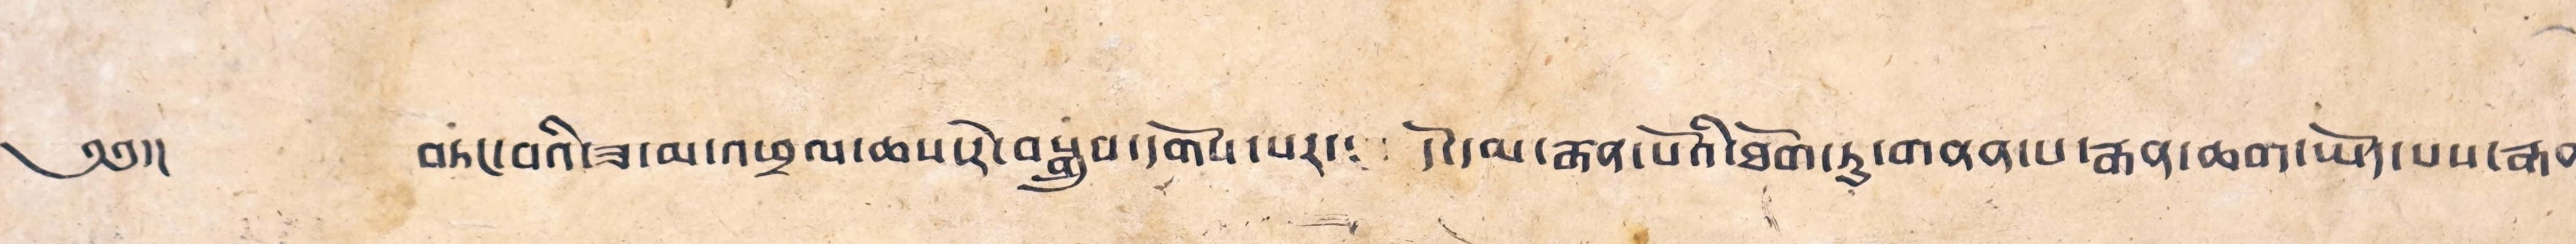༄༅།། བཏང་བའི་ཟ་མ་འཕྲལ་ཆས་རེ་བསྒུབ་དགོས་པར་དང་༴ དོ་དམ་རྒན་པོའི་ཐོག་ཏུ་གཤན་པ་རྒན་ཆག་ཡོད་པས་རྒན་
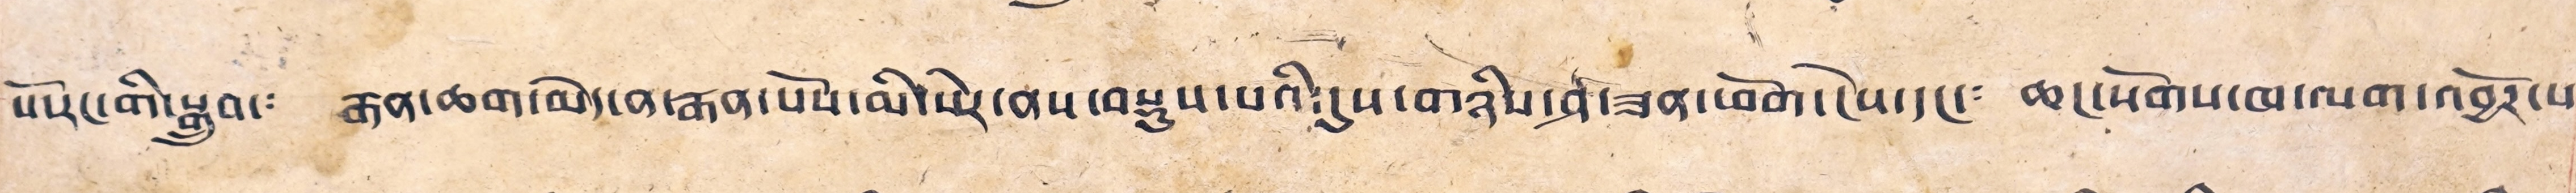པོ་རང་གི་སྒྲུབ་༴ རྒན་ཆག་མེད་ན་རྒན་པོས་མི་སེར་ནས་བསྡུས་པའི་དུས་གཉིས་ཤ་ཟན་ཕོག་ངེས་དང་༴ ཆང་སོགས་ཁ་ལག་འབྱོར་པ་
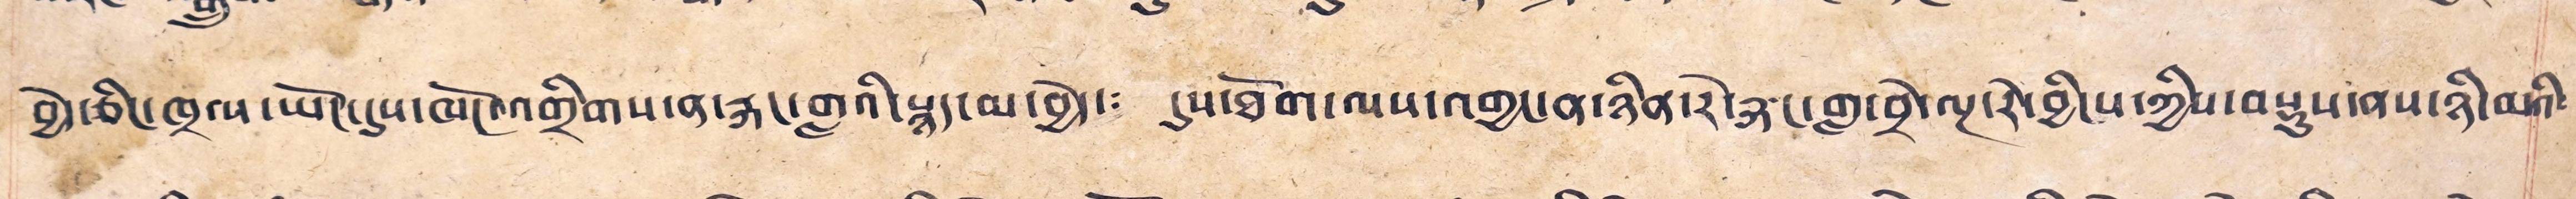བྱེད་ཅིང་ཁྲལ་ཡོང་དུས་ཁོང་འགྲིགས་ན་རྐང་གླའི་སྙད་མ་བྱེད་༴ དུས་ཐོག་ལས་འགྱང་ན་ཉིན་རེ་རྐང་གླ་བྲེ་ལྔ་རེ་བྱིངས་ཀྱིས་བསྡུས་བས་ཉི་མའི༴
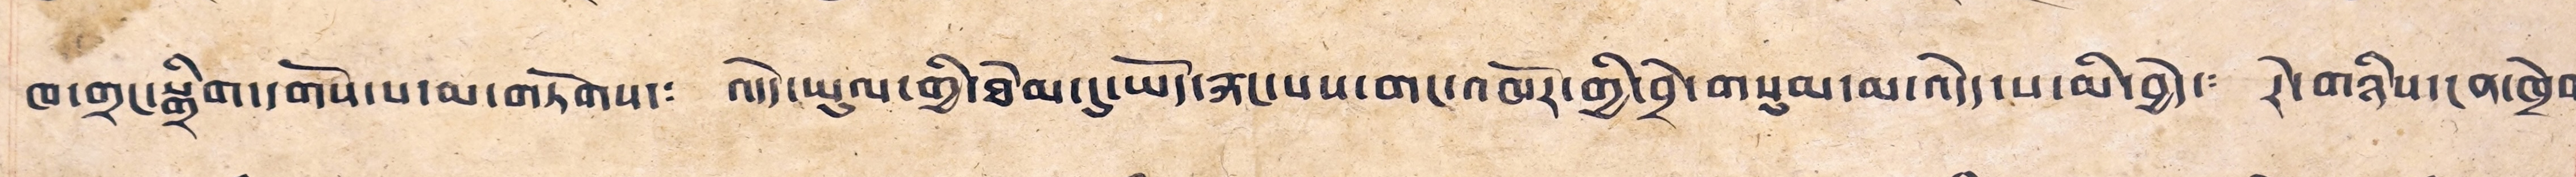ཁ་གྲང་སྒྲིག་དགོས་པ་མ་གཏོགས་༴ འདེད་ཡུལ་གྱི་ཐེམ་དུ་ཡོད་རྐང་པས་གང་འཁོར་གྱི་བྲེ་གསུམ་མ་འདེད་པ་མི་བྱེད་༴ རེ་གཉིས་ངན་ཁྲེབ༴
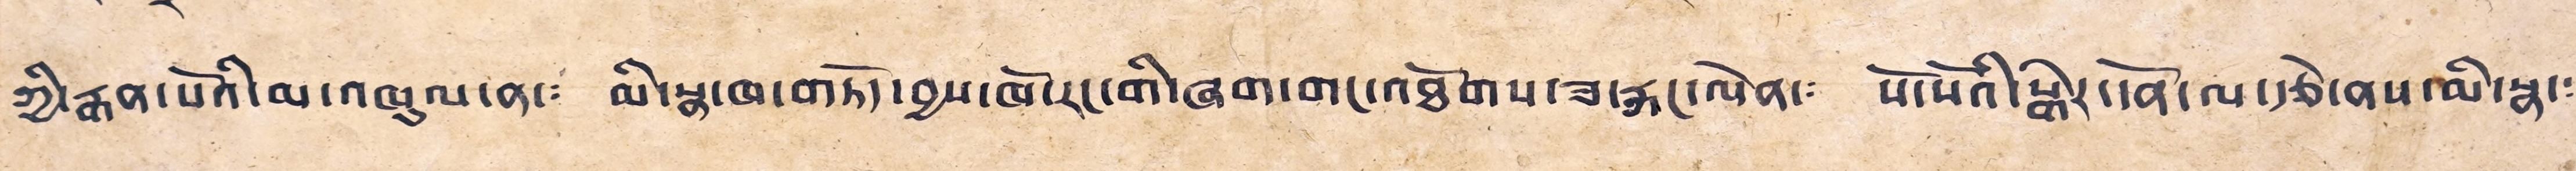ཀྱི་རྣན་པོའི་མ་འཁུལ་ན་༴ མི་སྣ་ཁ་གཏོད་བྱས་ཁོ་རང་གི་ཞག་གང་འཐོགས་ཟ་རྐང་ལེན་༴ སོ་སོའི་སྒེར་དོན་ལ་རྩེ་ནས་མི་སྣ་༴
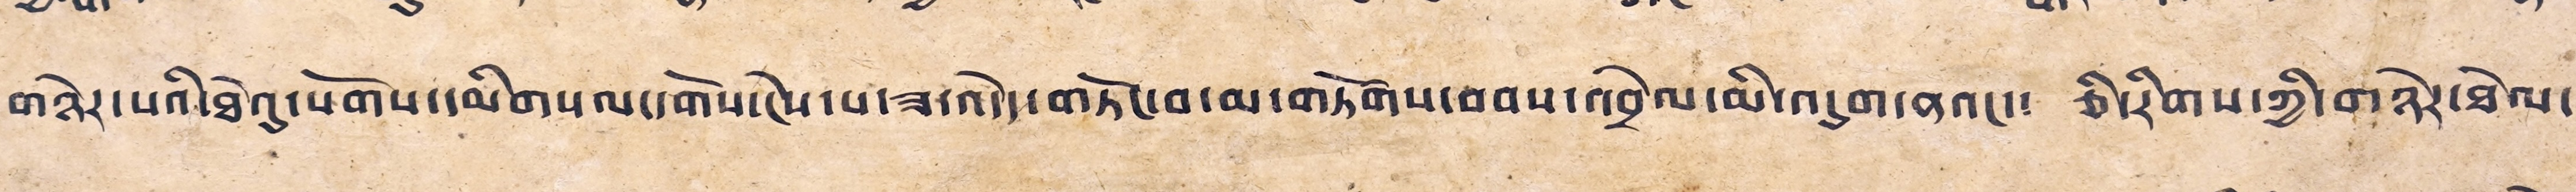གཉེར་པའི་ཐེའུ་སོགས་དམིགས་ལ་དགོས་ངེས་པ་ཟ་འདེད་གཏོང་བ་མ་གཏོགས་བབས་འབྲེལ་མི་འདུག་ནའང་༴ ཅི་རིགས་ཀྱི་གཉེར་ཐེལ་
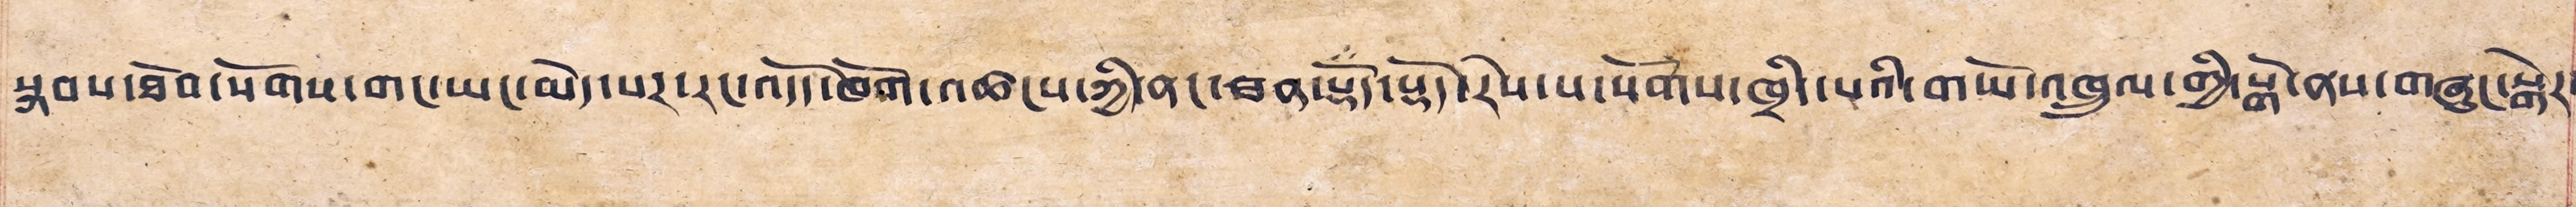སྐབས་ཐོབ་སོགས་གང་ཡང་མེད་པར་རང་འདོད་ཁོག་འཚངས་ཀྱི་ནང་ཟན་སྡོད་སྡོད་རེས་པ་སོགས་ཁྲིད་པའི་གཡོ་འཁྲུལ་གྱི་སྒོ་ནས་གཞུང་སྒེར་
